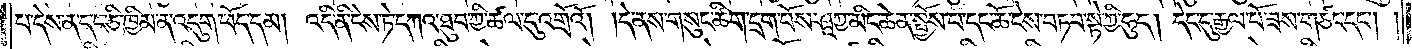པ་དེས་ན་ད་ང་ཅི་ཁྱིམ་ན་འདུག་ཕོད་དམ། འདི་ནི་ངེས་ཏེ་དཀའ་ཐུབ་ཀྱི་ཚལ་དུ་འགྲོའོ། །དེ་ནས་གསུང་ཚིག་དྲག་པོས་ཤཱཀྱ་མིང་ཆེན་སྤྱོས་པ་དང་ཆོ་ངེས་བཏབ་སྟེ་ཀྱི་ཧུད། དེང་དུ་རྒྱལ་པོ་ཟས་གཙང་དང༌། །
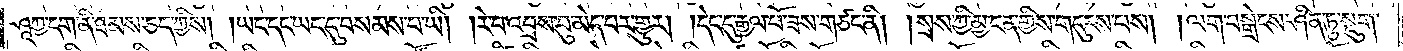ཤཱཀྱ་དག་ནི་ཐམས་ཅད་ཀྱིས། །ཡང་དང་ཡང་དུ་བསམས་པ་ཡི། །རེ་བ་འབྲས་བུ་མེད་པར་གྱུར། །དེང་དུ་རྒྱལ་པོ་ཟས་གཙང་ནི། །སྲས་ཀྱི་མྱ་ངན་གྱིས་གདུངས་པས། །ལག་བསྒྲེངས་ཤིན་ཏུ་སྡུག་
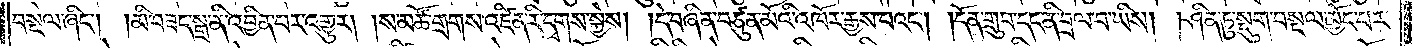བསྔལ་ཞིང༌། །མི་བཟད་སྒྲ་ནི་འབྱིན་པར་འགྱུར། །ས་མཚོ་གྲགས་འཛིན་རི་དྭགས་སྐྱེས། །དེ་བཞིན་བཙུན་མོའི་འཁོར་རྒྱས་པའང༌། །དོན་གྲུབ་དང་ནི་བྲལ་བ་ཡིས། །ཤིན་ཏུ་སྡུག་བསྔལ་མྱོང་བར་
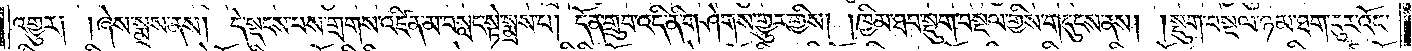འགྱུར༑ །ཞེས་སྨྲས་ནས། དེ་སྡངས་པས་གྲགས་འཛིན་མ་བསླང་སྟེ་སྨྲས་པ། དོན་གྲུབ་འདི་ནི་གཤེགས་གྱུར་གྱིས། །ཁྱིམ་ཐབ་སྡུག་བསྔལ་གྱིས་གདུངས་ནས། །སྡུག་བསྔལ་ཉམ་ཐག་ངུར་འོང་
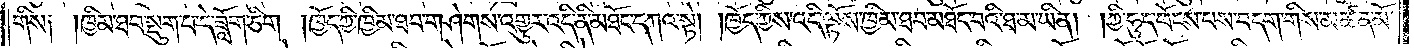གིས༑ །ཁྱིམ་ཐབ་སྡུག་པ་དེ་ཟློག་ཅིག །ཁྱོད་ཀྱི་ཁྱིམ་ཐབ་གཤེགས་འགྱུར་འདི་ནི་མཐོང་དཀའ་སྟེ། །ཁྱོད་ཀྱིས་འདི་ལྟོས་ཁྱིམ་ཐབ་མཐོང་བའི་ཐ་མ་ཡིན། །ཀྱི་ཧུད་ཕོངས་པས་བདག་གིས་མཚན་མོ་
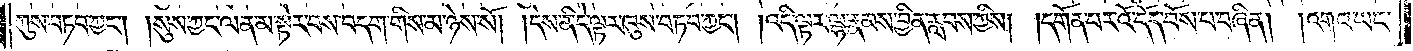ཀུས་བཏབ་ཀྱང༌། །སུས་ཀྱང་ལན་མ་སྟེར་བས་བདག་གིས་མ་ཉེས་སོ། །དེས་ནི་དེ་ལྟར་ཁུས་བཏབ་ཀྱང༌། །འདི་ལྟར་ལྷ་རྣམས་བྱིན་རླབས་ཀྱིས། །དགོན་པར་འོ་དོད་བོས་པ་བཞིན། །འགའ་ཡང་
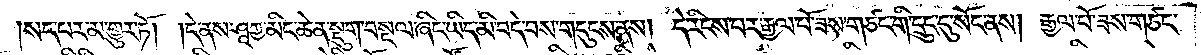སད་པར་མ་གྱུར་ཏོ། །དེ་ནས་ཤཱཀྱ་མིང་ཆེན་སྡུག་བསྔལ་ཞིང་ཡིད་མི་བདེ་བས་གདུངས་ནས། དེ་རིངས་པར་རྒྱལ་པོ་ཟས་གཙང་གི་དྲུང་དུ་སོང་ནས། རྒྱལ་པོ་ཟས་གཙང་
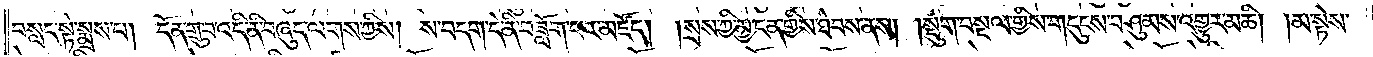བསླང་སྟེ་སྨྲས་པ། དོན་གྲུབ་འདི་ནི་བཞུད་ལགས་ཀྱིས། ས་བདག་དེ་ནི་བཟློག་པར་མཛོད། །སྲས་ཀྱི་མྱ་ངན་གྱིས་ཐེབས་ནས། །སྡུག་བསྔལ་གྱིས་གདུངས་བཤུམས་འགྱུར་མཆིས། །མ་སྟེས་
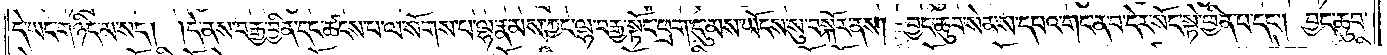དེ་ཡང་གཉིད་མ་སད། །དེ་ནས་བརྒྱ་བྱིན་དང་ཚངས་པ་ལ་སོགས་པ་ལྷ་རྣམས་ཀྱང་ལྷ་བརྒྱ་སྟོང་ཕྲག་དུ་མས་ཡོངས་སུ་བསྐོར་ནས། བྱང་ཆུབ་སེམས་དཔའ་གང་ན་བ་དེར་སོང་སྟེ་ཕྱིན་པ་དང༌། བྱང་ཆུབ་
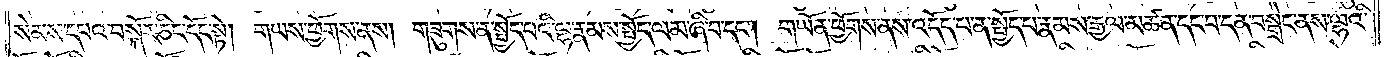སེམས་དཔའ་བསྐོར་ཅིང་དོང་སྟེ། གཡས་ཕྱོགས་ནས། གཟུགས་ན་སྤྱོད་པའི་ལྷ་རྣམས་སྤྱོད་ལམ་ཞི་བ་དང༌། གཡོན་ཕྱོགས་ནས་འདོད་པ་ན་སྤྱོད་པ་རྣམས་རྒྱལ་མཚན་དང་བ་དན་བསྒྲེང་ནས་ལྷའི་
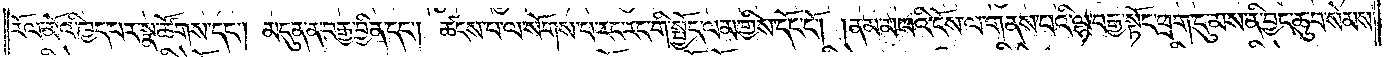རོལ་མོའི་ཁྱད་པར་སྣ་ཚོགས་དང༌། མདུན་ན་བརྒྱ་བྱིན་དང༌། ཚངས་པ་ལ་སོགས་པ་རང་རང་གི་སྤྱོད་ལམ་གྱིས་དོང་ངོ༌། །ནམ་མཁའི་ངོས་ལ་གནས་པའི་ལྷ་བརྒྱ་སྟོང་ཕྲག་དུ་མས་ནི་བྱང་ཆུབ་སེམས་
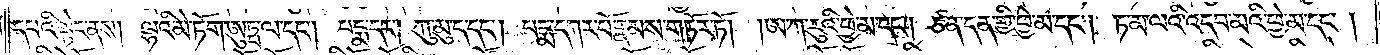དཔའི་སྟེང་ནས། ལྷའི་མེ་ཏོག་ཨུཏྤལ་དང༌། པདྨ་དང༌། ཀུ་མུ་ད་དང༌། པདྨ་དཀར་པོ་རྣམས་གཏོར་ཏོ། །ཨ་ཀ་རུའི་ཕྱེ་མ་དང༌། ཙན་དན་གྱི་ཕྱེ་མ་དང༌། ཏ་མ་ལའི་འདབ་མའི་ཕྱེ་མ་དང༌།
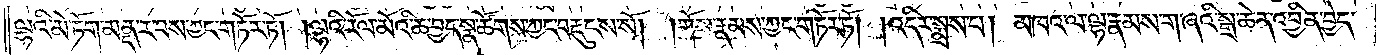ལྷའི་མེ་ཏོག་མནད་ར་བས་ཀྱང་གཏོར་ཏོ། །ལྷའི་རོལ་མོའི་ཆ་བྱད་སྣ་ཚོགས་ཀྱང་བརྡུངས་སོ། །གོས་རྣམས་ཀྱང་གཏོར་ཏོ། །འདིར་སྨྲས་པ། མཁའ་ལ་ལྷ་རྣམས་ག་ཞའི་སྒྲ་ཆེན་འབྱིན་བྱེད་
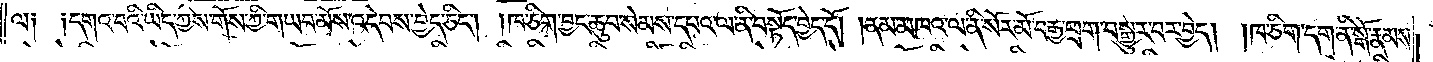ལ༑ ༑དགའ་བའི་ཡིད་ཀྱིས་གོས་ཀྱི་གཡབ་མོས་འདེབས་བྱེད་ཅིང༌། །ཁ་ཅིག་བྱང་ཆུབ་སེམས་དཔའ་ལ་ནི་བསྟོད་བྱེད་དོ། །ནམ་མཁའ་ལ་ནི་སོར་མོ་བརྒྱ་ཕྲག་བསྒྱུར་བར་བྱེད། །ཁ་ཅིག་དག་ནི་སྒོ་རྣམས་
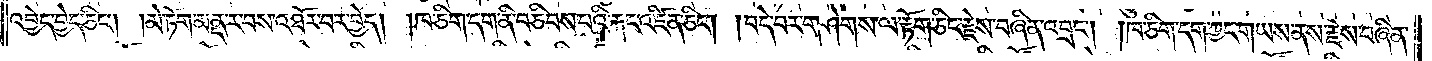འབྱེད་བྱེད་ཅིང༌། །མེ་ཏོག་མནད་ར་བས་འཐོར་བར་བྱེད། །ཁ་ཅིག་དག་ནི་བཅིབས་པའི་རྐང་འཛིན་ཅིང༌། །བདེ་བར་གཤེགས་ལ་རྟོག་ཅིང་རྗེས་བཞིན་འབྲང༌། །ཁ་ཅིག་དག་ཀྱང་གཡས་ནས་རྗེས་བཞིན་
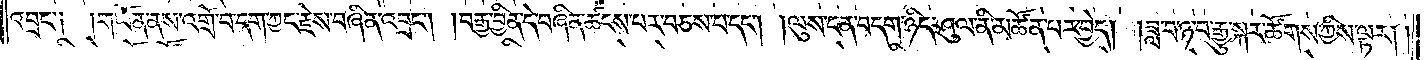འབྲང་༑ ༑གཡོན་ནས་འགྲོ་བ་དག་ཀྱང་རྗེས་བཞིན་འབྲང༌། །བརྒྱ་བྱིན་དེ་བཞིན་ཚངས་པར་བཅས་པ་དང༌། །ལུས་ངན་བདག་ཉིད་ཤུལ་ནི་མཚོན་པར་བྱེད། །ཟླ་བ་ཉ་བ་རྒྱུ་སྐར་ཚོགས་ཀྱིས་ལྟར། །
